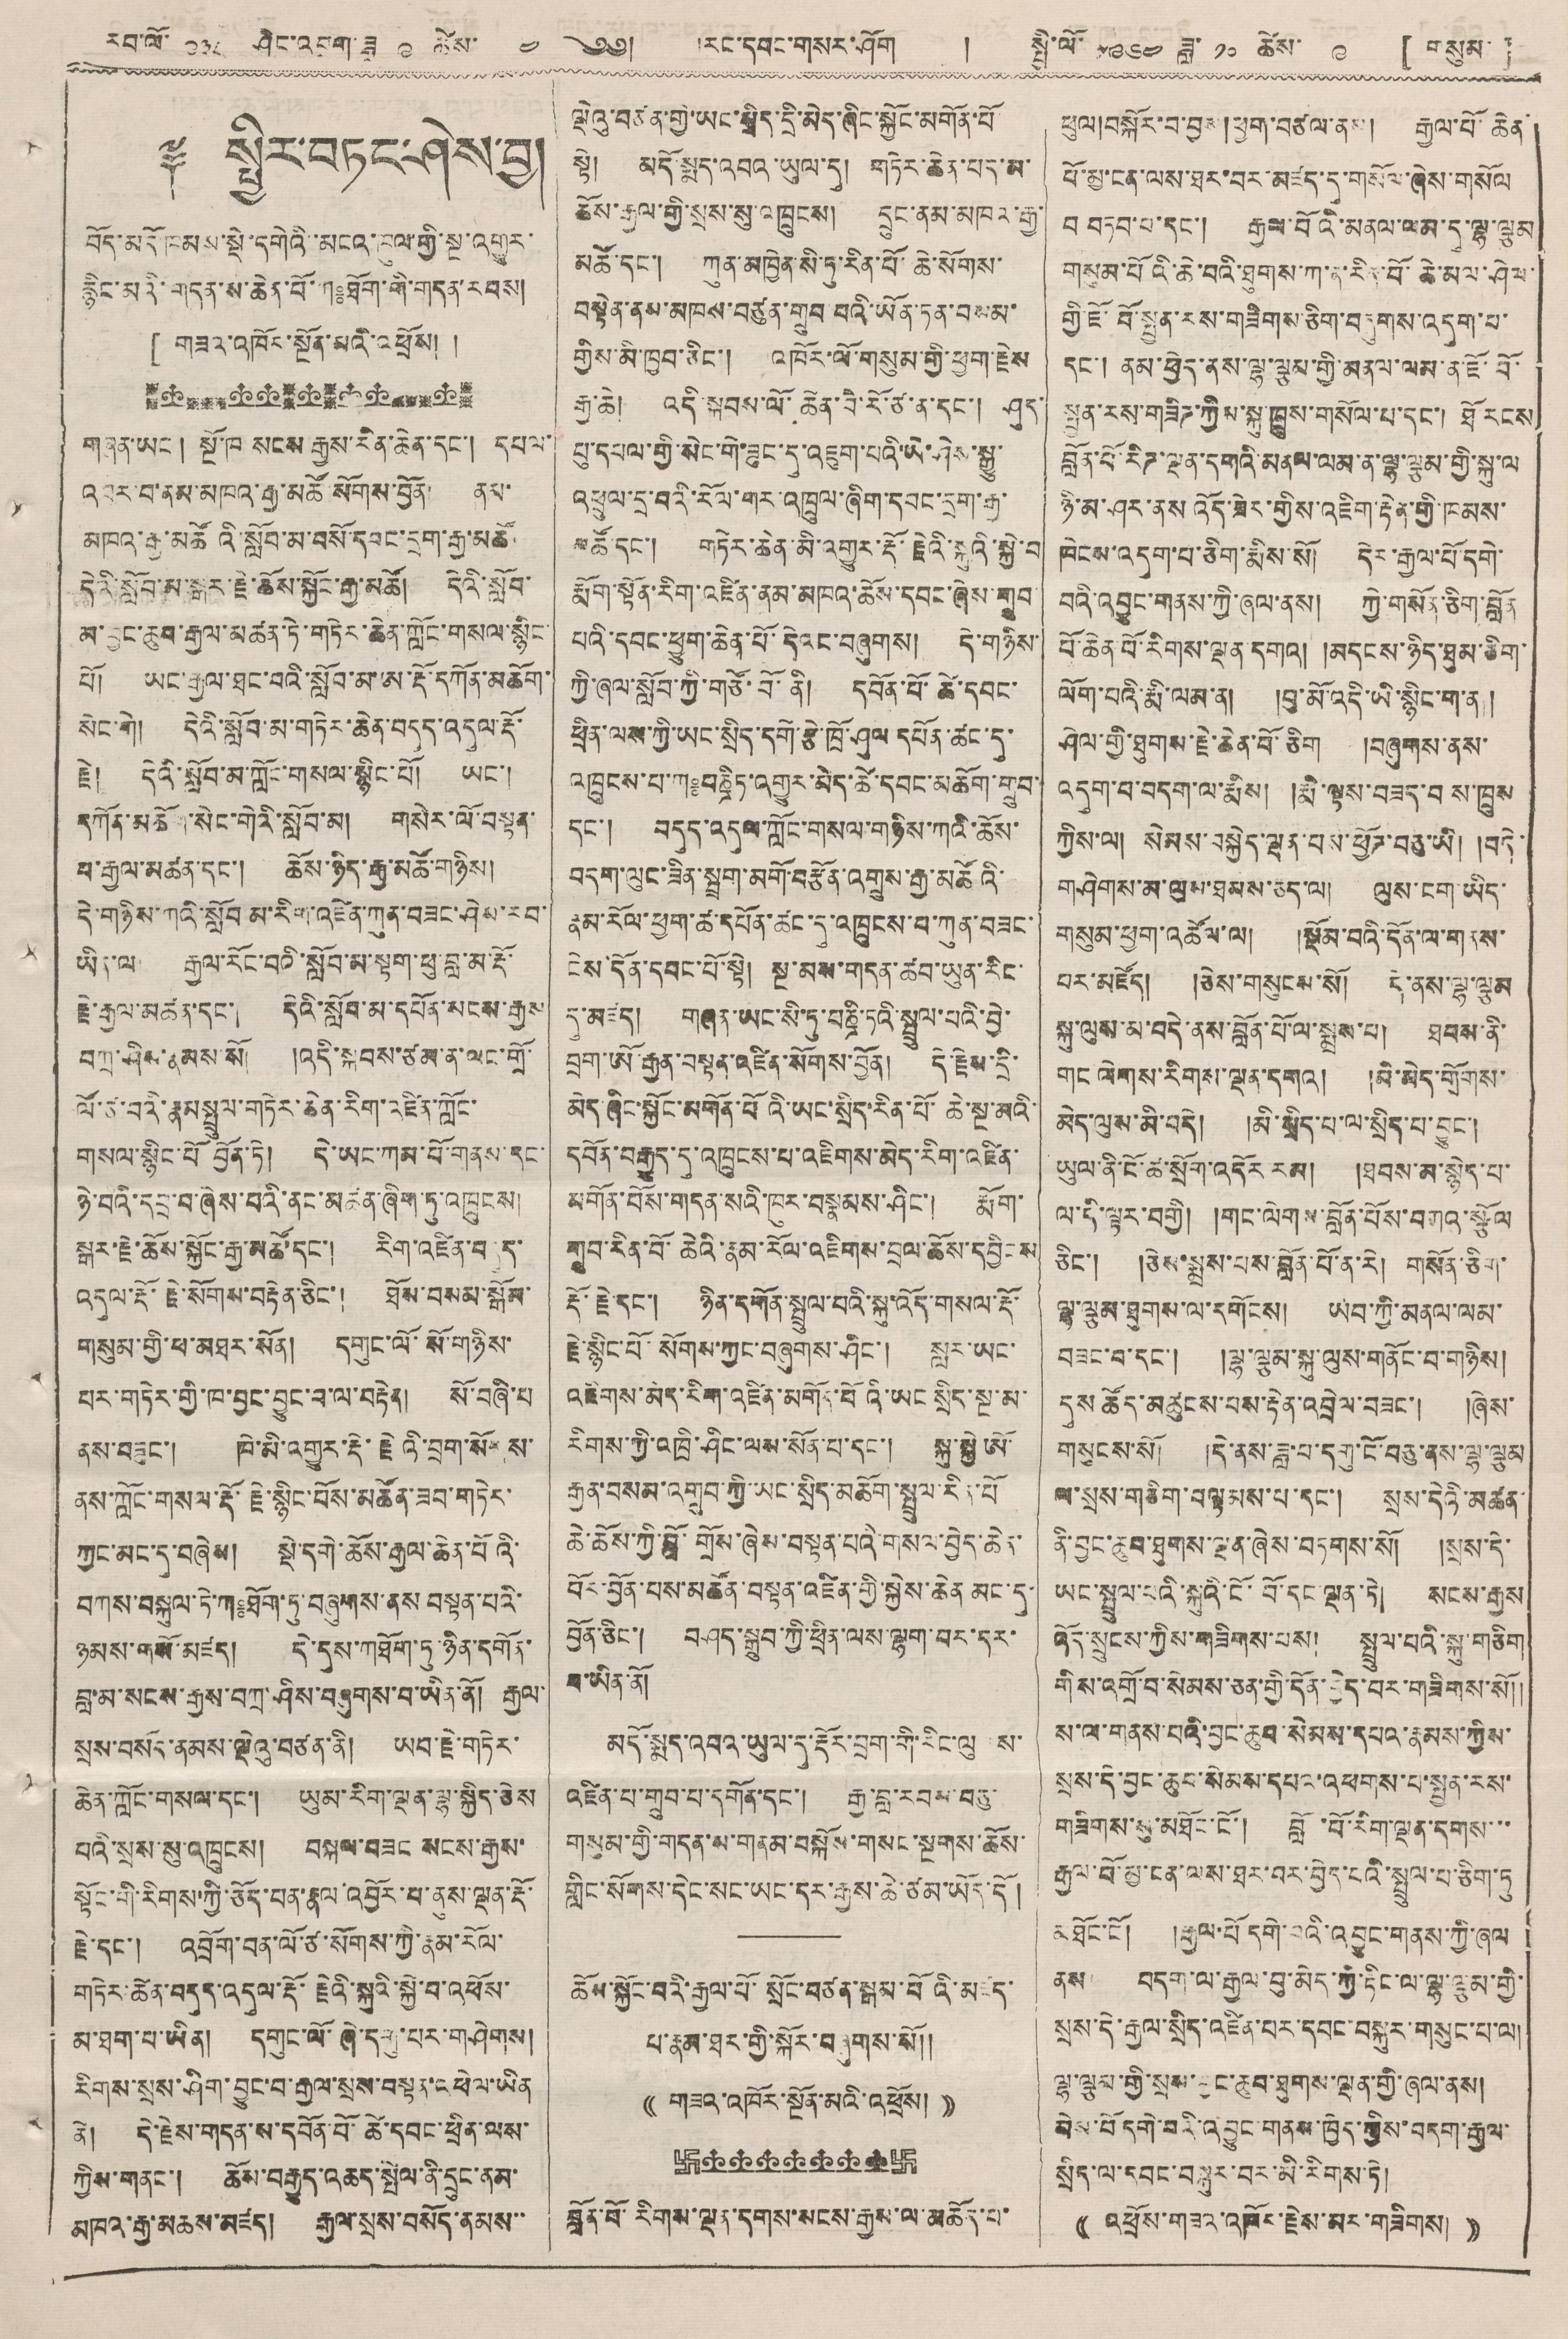རབ་ལོ་ ༩༣༨ ཤིང་འབྲུག་ཟླ ༩ ཚེས་ ༤ ༄༅། །རང་དབང་གསར་ཤོག ། སྤྱི་ལོ་ ༡༩༦༤ ཟླ་ ༡༠ ཚེས་ ༩ [ གསུམ་ ]
༈ སྤྱིར་་བཏང་ཤེས་བྱ།
བོད་མདོ་ཁམས་སྡེ་དགེའི་མངའ་ཁུལ་གྱི་སྔ་འགྱུར་
རྙིང་མའི་གདན་ས་ཆེན་པོ་ཀ༔ཐོག་གི་གདན་རབས།
[ གཟའ་འཁོར་སྔོན་མའི་འཕྲོས། །
གཞན་ཡང ། སྔོ་ཁ སངས་ རྒྱས་རིན་ཆེན་དང་། དཔལ་
འབར་བ་ནམ་མཁའ་རྒྱ་མཚོ སོགས་བྱོན། ནམ་
མཁའ་རྒྱ་མཚོའི་སློབ་མ་བསོ་དབང་དྲག་རྒྱ་མཚོ་
དེའི་སློབ་མ་སྒར་རྗེ་ཆོས་སྐྱོང་རྒྱ་མཚོ། དེའི་སློབ་
མ་བྱང་ཆུབ་རྒྱལ་མཚན་ཏེ་གཏེར་ཆེན་གློང་གསལ་སྙིང་
པོ། ཡང་རྒྱལ་ཐང་བའི་སློབ་མ་ཨ་རྡོ་དཀོན་མཆོག་
སེང་གེ། དེའི་སློབ་མ་གཏེར་ཆེན་བདུད་འདུལ་རྡོ་
རྗེ། དེའི་སློབ་མ་ཀློང་གསལ་སྙིང་པོ། ཡང་།
དཀོན་མཆོག་སེང་གེའི་སློབ་མ། གསེར་ལོ་བསྟན་
པ་རྒྱལ་མཚན་དང་། ཆོས་ཉིད་རྒྱ་མཚོ་གཉིས།
དེ་གཉིས་ཀའི་སློབ མ་རིག་འཛིན་ཀུན་བཟང་ཤེས་རབ་
ཡིན་ལ། རྒྱལ་རོང་བའི་སློབ་མ་སྟག་ཕུ་བླ་མ་རྡོ་
རྗེ་རྒྱལ་མཚན་དང་། དེའི་སློབ་མ་དཔོན་སངས་རྒྱས
བཀྲ་ཤིས་རྣམས་སོ། །འདི་སྐབས་ཙམ་ན་ལང་གྲོ་
ལོ་ཙ་བའི་རྣམ་སྤྲུལ་གཏེར་ཆེན་རིག་འཛིན་ཀློང་
གསལ་སྙིང་པོ བྱོན་ཏེ། དེ་ཡང་ཀམ་པོ་གནས་དང་
ཉེ་བའི་དབྲ་བ་ཞེས་པའི་ནང་མཚན་ཞིག་ཏུ་འཁྲུངས།
སྒར་རྗེ་ཆོས་སྐྱོང་རྒྱ་མཚོ་དང་། རིག་འཛིན་བདུད་
འདུལ་རྡོ་རྗེ་སོགས་བརྟེན་ཅིང་། ཐོས་བསམ་སྒོམ་
གསུམ་གྱི་ཕ་མཐར་སོན། དགུང་ལོ་སོ་གཉིས་
པར་གཏེར་གྱི་ཁ་བྱང་བྱུང་བ་ལ་བརྟེན། སོ་བཞི་པ
ནས་བཟུང་། ཁི་མི་འགྱུར་རྡོ་རྗེའི་བྲག་སོགས་
ནས་ཀློང་གསལ་རྡོ་རྗེ་སྙིང་པོས་མཚོན་ཟབ་གཏེར་
ཀྱང་མང་དུ་བཞེས། སྡེ་དགེ་ཆོས་རྒྱལ་ཆེན་པོའི་
བཀས་བསྐུལ་ཏེ་ཀ༔ཐོག་ཏུ་བཞུགས་ནས བསྟན་པའི་
ཉམས་གསོ་མཛད། དེ་དུས་ཀཐོག་ཏུ་ཉིན་དགོན་
བླ་མ་སངས་རྒྱས་བཀྲ་ཤིས་བཞུགས་པ་ཡིན་ནོ། རྒྱལ་
སྲས་བསོད་ནམས་ལྡེའུ་བཙན་ནི། ཡབ་རྗེ་གཏེར་
ཆེན་ཀློང་གསལ་དང་། ཡུམ་རིག་ལྡན་ལྷ་སྐྱིད་ཅེས
པའི་སྲས་སུ་འཁྲུངས། བསྐལ་བཟང སངས་རྒྱས་
སྟོང་གི་རིགས་ཀྱི་ཅོད་པན་རྣལ་འབྱོར་པ་ནུས་ལྡན་རྡོ་
རྗེ་དང་། འབྲོག་བན་ལོ་ཙ་སོགས་ཀྱི་རྣམ་རོལ་
གཏེར་ཆེན་བདུད་འདུལ་རྡོ་རྗེའི་སྐུའི་སྐྱེ་བ་འཕོས་
མ་ཐག་པ་ཡིན། དགུང་ལོ་ཞེ་དགུ་པར་གཤེགས།
རིགས་སྲས་ཤིག་བྱུང་བ་རྒྱལ་སྲས་བསྟན་འཕེལ་ཡིན
ནེ། དེ་རྗེས་གདན་ས་དཔོན་པོ་ཚེ་དབང་ཕྲིན་ལས་
ཀྱིས་གནང་། ཆོས་བརྒྱད་འཆད་སྤེལ་ནི་དྲུང་ནམ་
མཁའ་རྒྱ་མཆས་མཛད། རྒྱལ་སྲས་བསོད་ནམས་་
ལྡེའུ་བཙན་གྱི་ཡང་སྲིད་དྲི་མེད་ཞིང་སྐྱོང་མགོན་པོ
སྟེ། མདོ་སྨན་འབའ་ཡུལ་དུ། གཏེར་ཆེན་པད་མ་
ཆོས་རྒྱལ་གྱི་སྲས་སུ་འཁྲུངས། དྲུང་ནམ་མཁའ་རྒྱ་
མཚོ་དང་། ཀུན་མཁྱེན་སི་ཏུ་རིན་པོ་ཆེ་སོགས་
བསྟེན་མན་མཁས་བཙུན་གྲུབ་པའི་ཡོན་ཏན་བསམ་
གྱིས་མི་ཁྱབ་ཅིང་། འཁོར་ལོ་གསུམ་གྱི་ཕྱག་རྗེས
རྒྱ་ཆེ། འདི་སྐབས་ལོ་ཆེན་བཻ་རོ་ཙ་ན་དང་། ཤུད་
པུ་དཔལ་གྱི་སེང་གེ་ཟུང་དུ་འཇུག་པའི་ཡེ་ཤེས་སྒྱུ་
འཕྲུག་དྲ་བའི་རོལ་གར་འཁྲུལ་ཞིག་དབང་དྲག་རྒྱ་
མཚོ་དང་། གཏེར་ཆེན་མི་འགྱུར་རྡོ་རྗེའི་སྐུའི་སྐྱེ་བ
རྨོག་སྟོན་རིག་འཛིན་ནམ་མཁའ་ཆོས་དབང་ཞེས་གྲུབ
པའི་དབང་ཕྱུག་ཆེན་པོ་དེའང་བཞུགས། དེ་གཉིས་
ཀྱི་ཞལ་སློབ་ཀྱི་གཙོ་བོ་ནི། དབོན་པོ་ཚེ་དབང་
ཕྲིན་ལས་ཀྱི་ཡང་སྲིད་དགེ་རྩེ་ཁྲོ་ཤུལ་དཔོན་ཚང་དུ་
འཁྲུངས་པ་ཀ༔པཎྜིཏ་འགྱུར་མེད་ཚེ་དབང་མཆོག་གྲུབ་
དང་། བདུད་འདུལ་ཀློང་གསལ་གཉིས་ཀའི་ཆོས་
བདག་ལུང་ཟིན་སྦྲག་མགོ་བཙོན་འགྲུས་རྒྱ་མཚོའི་
རྣམ་རོལ་ཕྱག་ཚ་དཔོན་ཚང་དུ་འཁྲུངས་པ་ཀུན་བཟང་
ངེས་དོན་དབང་པོ་སྟེ། སྔ་མས་གདན་ཚབ་ཡུལ་རིང་
དུ་མཛད། གཞན་ཡང་སོ་ཏུ་པཎྜི་ཏའི་སྤྲུལ་བའི་བྱེ་
བྲག་ཨོ་རྒྱན་བསྟན་འཛིན་སོགས་བྱོན། དེ་རྗེས་དྲི་
མེད་ཞིང་སྐྱོང་མགོན་པོའི་ཡང་སྲིད་རིན་པོ་ཆེ་སྔ་མའི་
དབོན་བརྒྱུད་དུ་འཁྲུངས་པ་འཇིགས་མེད་རིག་འཛིན་
མགོན་པོས་གདན་སའི་ཁུར་བསྣམས་ཤིང་། རྨོག་
གྲུབ་རིན་པོ་ཆེའི་རྣམ་རོལ་འཇིགས་བྲལ་ཆོས་དབྱིངས
རྡོ་རྗེ་དང་། ཉིན་དགོན་སྤྲུལ་བའི་སྐུ་འོད་གསལ་རྡོ་
རྗེ་སྙིང་པོ་སོགས་ཀྱང་བཞུགས་ཤིང་། སླར་ཡང་
འཇིགས་མེད་རིག་འཛིན་མགོད་པོའི་ཡང་སྲིད་སྔ་མ་
རིགས་ཀྱི་འཁྲི་ཤིང་ལས་སོན་པ་དང་། སྐུ་སྐྱེ ཨོ་
རྒྱན་བསམ་འགྲུབ་ཀྱི་ཡང་སྲིད་མཆོག་སྤྲུལ་རིན་པོ
ཆེ་ཆོས་ཀྱི་བློ་གྲོས་ཞེས་བསྟན་པའི་གསལ་བྱེད་ཆེན་
པོར་བྱོན་པས་མཚོན་བསྟན་འཛིན་གྱི་སྐྱེས་ཆེན་མང་དུ་
བྱོན་ཅིང་། བཤད་སྒྲུབ་ཀྱི་ཕྲིན་ལས་ལྷག་བར་དར་
བ་ཡིན་ནི།
མདོ་སྨད་འབའ་ཡུལ་དུ་རྡོར་བྲག་གི་རིང་ལུགས་
འཛིན་པ་གྲུབ་པ་དགོན་དང་། རྒྱ་བླ་རབས་བཅུ་
གསུམ་གྱི་གདན་མ་གནམ་བསྐོས་གསང་སྔགས་ཆོས་
གླིང་སོགས་དེང་སང་ཡང་དར་རྒྱས་ཆེ་ཙམ་ཡོད་དོ།
ཆོས་སྐྱོང་བའི་རྒྱལ་པོ་སྲོང་བཙན་སྒམ་པོའི་མཛད་
པ་རྣམ་ཐར་གྱི་སྐོར་བཞུགས་སོ།།
(( གཟའ་འཁོར་སྔོན་མའི་འཕྲོས། ))
བློན་པོ་རིགས་ལྡན་དགས་སངས་རྒྱས་ལ་མཆོད་པ་
ཕུལ།བསྐོར་བ་བྱས།ཕྱག་བཙལ་ནས། རྒྱལ་པོ་ཆེན་
པོ་མྱ་ངན་ལས་ཐར་བར་མཛད་དུ་གསོལ་ཞེས་གསོལ
བ བཏབ་བ་དང་། རྒྱལ་པོའི་མནལ་ལམ་དུ་ལྷ་ལྕམ
གསུམ་པོའི་ཆེ་བའི་ཐུགས་ཀ་ན་རིན་པོ་ཆེ་མལ་ཤེལ་
གྱི་ཇོ་བོ་སྤྱན་རས་གཟིགས་ཅིག་བཞུགས་འདུག་པ་
དང་། ནམ་ཕྱེད་ནས་ལྷ་ལྕམ་གྱི་མནལ་ལམ་ན་ཇོ་བོ་
སྤྱན་རས་གཟིཊ་ཀྱིས་སྐུ་ཁྲུས་གསོལ་པ་དང་། ཐོ རངས་
བློན་པོ་རིཊ་ལྡན་དགའི་མནལ་ལམ་ལ་ལྷ་ལྕམ་གྱི་སྐུ་ལ
ཉི་མ་ཤར་ནས་འོད་ཟེར་གྱིས་འཇིག་རྟེན་གྱི་ཁམས་
ཁེངས་འདུག་པ་ཅིག་རྨིས་སོ། དེར་རྒྱལ་པོ་དགེ་
བའི་འབྱུང་གནས་ཀྱི་ཞལ་ནས། ཀྱེ་གསོན་ཅིག་བློན
པོ་ཆེན་པོ་རིགས་ལྡན དགའ། །མདངས་ཉིད་ཐུམ་ཅིག་
ལོག་པའི་རྨི་ལམ་ན། །བུ་མོ་འདི་ཡི་སྙིང་ག་ན །
ཤེལ་གྱི་ཐུགས་རྗེ་ཆེན་པོ་ཅིག །བཞུགས་ནས་
འདུག་བ་བདག་ལ་རྨིས། རྨི་ལྟས་བཟད་བས་ཁྲུས
ཀྱིས་ལ། སེམས་བསྐྱེད་ལྡན་པས་ཕྱོཊ་བཅུ་ཡི། །བདེ་
གཤེགས་མ་ལུས་ཐམས་ཅད་ལ། ལུས་ངག་ཡིད་
གསུམ་ཕྱག་འཚལ་ལ། །སྡོམ་པའི་དོན་ལ་གནས་
བར་མཛོད། །ཅེས་གསུངས་སོ། དེ་ནས་ལྷ་ལྕམ
སྐུ་ལུས་མ་བདེ་ནས་བློན་པོ་ལ་སྨྲས་པ། ཐབས་ནི་
གང ལེགས་རིགས་ལྡན་དགའ། །མི་མེད་གྲོགས་
མེད་ལུས་མི་བདེ། །མི་སྲིད་པ་ལ་སྲིད་པ་བྱུང་།
ཡུལ་ནི་ངོ་ཚ་སྲོག་འདོར་རམ། །ཐབས་མ་སྙེད་པ་
ལ་དི་ལྟར་བགྱི། །གང་ལེགས་བློན་པོས་བཀའ་སྩོལ་
ཅིང་། །ཅེས་སྨྲས་པས་བློན་པོ་ན་རེ། གསོན་ཅིག་
ལྷ་ལྕམ་ཐུགས་ལ་དགོངས། ཡབ་ཀྱི་མནལ་ལམ་
བཟང་བ་དང་། །ལྷ་ལྕམ་སྐུ་ལུས་གནོང་བ་གཉིས།
དུས་ཚོད་མཚུངས་པས་རྟེན་འབྲེལ་བཟང་། །ཞེས་
གསུངས་སོ། དེ་ནས་ཟླ་བ་དགུ་ངོ་བཅུ་ནས་ལྕམ
ལ་སྲས་གཅིག་བལྟམས་པ་དང་། སྲས་དེའི་མཚན་
ནི་བྱང་ཆུབ་ཐུགས་ལྡན་ཞེས་བཏགས་སོ། སྲས་དེ་
ཡང་སྤྲུལ་པའི་སྐུའི་ངོ་བོ་དང་ལྡན་ཏེ། སངས་རྒྱས
འོད་སྲུངས་ཀྱིས་གཟིགས་པས། སྤྲུལ་པའི་སྐུ་གཅིག
གིས་འགྲོ་བ་སེམས་ཅན་གྱི་དོན་བྱེད་བར་གཟིགས་སོ།།
ས་ལ་གནས་པའི་བྱང་ཆུབ་སེམས་དཔའ་རྣམས་ཀྱིས་
སྲས་དེ་བྱང་ཆུབ་སེམས་དཔའ་འཕགས་པ་སྤྱན་རས་
གཟིགས་སུ་མཐོང་ངོ་། བློ་བོ་རིག་ལྡན་དགས་་་
རྒྱལ་བོ་མྱ་ངན་ལས་ཐར་བར་བྱེད་པའི་སྤྲུལ་པ་ཅིག་ཏུ
མཐོང་ངོ། །རྒྱལ་པོ དགེ་བའི་འབྱུང་གནས་ཀྱི་ཞལ
ནས། བདག་ལ་རྒྱལ་བུ་མེད་ཀྱི་རྟིང་ལ་ལྷ་ལྕམ་གྱི་
སྲས་དེ་རྒྱལ་སྲིད་འཛིན་པར་དབང་བསྐུར་གསུང་པ་ལ།
ལྷ་ལྕམ་གྱི་སྲས་བྱང་ཆུབ་ཐུསག་ལྡན་གྱི་ཞལ་ནས།
བེས་བོ་དགེ་བའི་འབྱུང་གནས་ཁྱེད་ཀྱིས་བདག་རྒྱལ་
སྲིད་ལ་དབང་བསྐུར་བར་མི་རིགས་ཏེ།
(( འཕྲོས་གཟའ་འཁོར་རྗེས་མར་གཟིགས། ))
